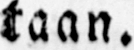taan.
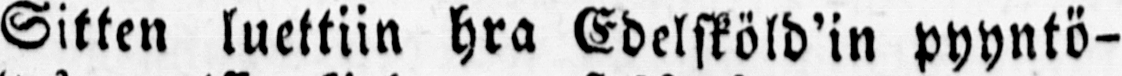Sitten luettiin hra Edelsköld’in pyyntö-
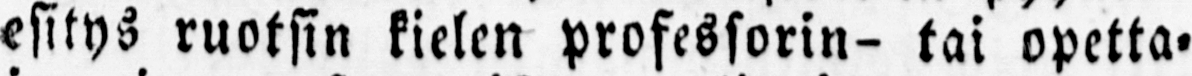esitys ruotsin kielen professorin- tai opetta-
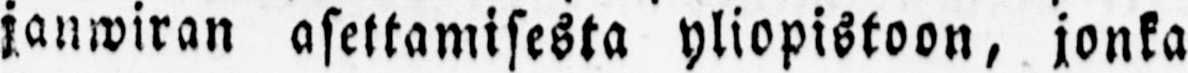janwiran asettamisesta yliopistoon, jonka
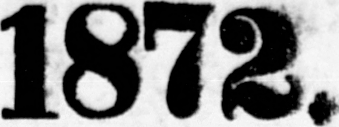1872.
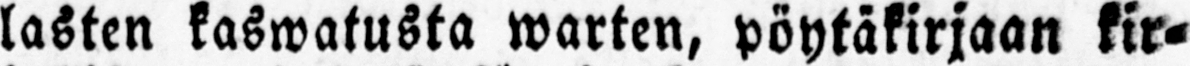lasten kaswatusta warten, pöytäkirjaan kir-
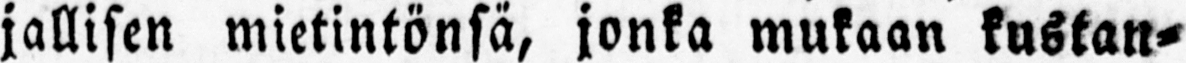jallisen mietintönsä, jonka mukaan kustan-
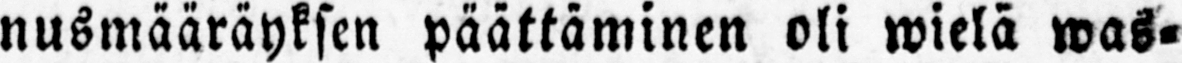nusmääräyksen päättäminen oli wielä was-
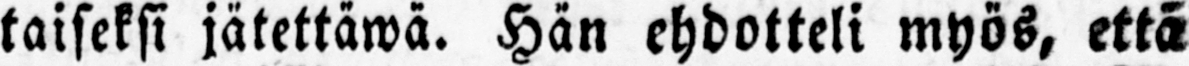taiseksi jätettäwä. Hän ehdotteli myös, että
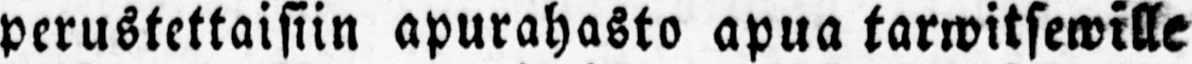perustettaisiin apurahasto apua tarwitsewille
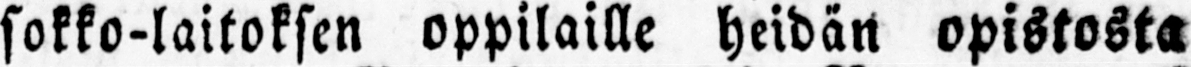sokko-laitoksen oppilaille heidän opistosta
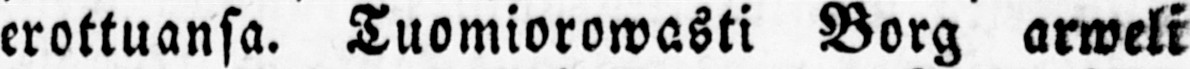erottuansa. Tuomiorowasti Borg arweli
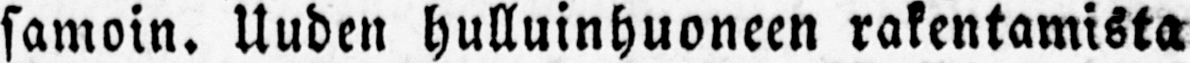samoin. Uuden hulluinhuoneen rakentamista
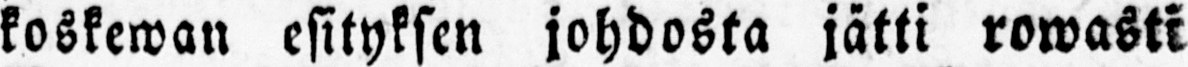koskewan esityksen johdosta jätti rowasti
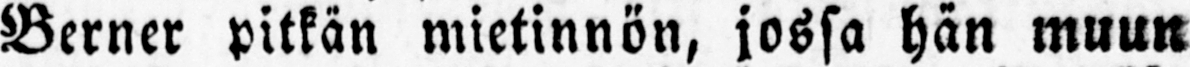Berner pitkän mietinnön, jossa hän muun
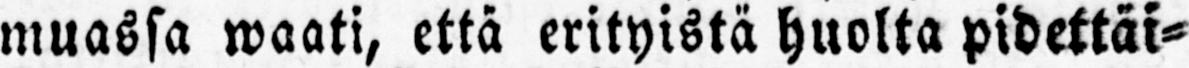muassa waati, että erityistä huolta pidettäi-
